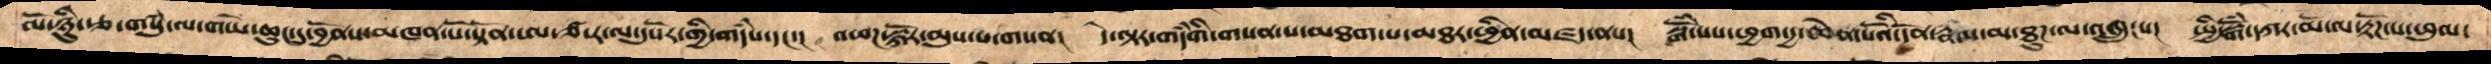ལོ་ཉིུ་རྩ་གསུཾ་ལ་གཡོ་ཆུང་དུ་བྱོནས་མཁན་པོ་སྟོན་ཨ་ཙ་ར་ལ་དུསོར་གྱི་གདཾས་དང་།  འཕཌ་སྐོར་མུས་པ་གསན།   དེ་ལྟར་གདཾགི་གསན་པ་མཐག་པ་མཐར་ཕྱིན་མཛད་ནས།   སྒོཾས་པས་ཕྱག་དྱ་ཆེན་པོའི་དོན་རྣལ་མ་ཐུཌ་ལ་འཁྲུངས།  སྤྱི་སྒོཾ་དཀར་མོ་ལ་རྟོཌ་པ་ཕུལ་
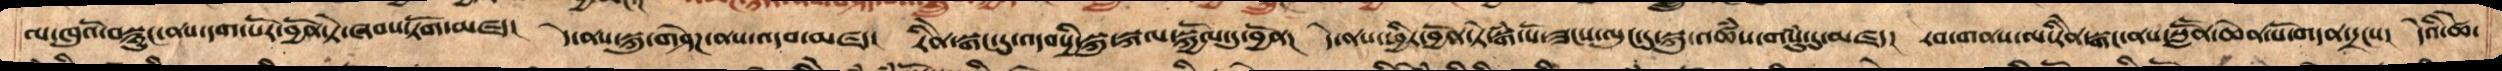ལ་ཁུའོ་བསྙུང་ནས་དག་པོར་བྱོན་ཏེ་ཞབས་ཏོག་མཛད།  དེ་ནས་སྐུ་གཤེཌ་ནས་འདབ་མཛད།  རིནེ་སྒང་དུ་འདབསྱི་སྐུ་སྐལ་སྐྱོལ་དུ་བྱོན།   དེ་ནས་ཕྱིར་བྱོན་ཏེ་སྒཾ་པོ་ཟངས་ལུང་དུ་སྐུ་འཚཾས་གསུཾ་དུ་མཛད།  རབ་གནས་ལ་རིནེ་སྒང་ནས་སླཽན་ཆེན་པོ་གདན་དྲངས།   དེའི་ཚེ་
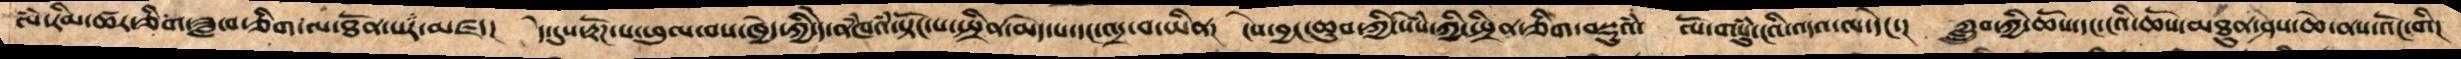ལཾ་རིམ་ཚར་ཅིག་ཟླ་བ་ཅིག་ལ་ཐོན་པར་མཛད།   དེ་དུས་རྟོཌ་པ་ཕུལ་བས་ཁྱེད་ཀྱི་དེ་ནཾཁའཾསྟོང་པ་སྤྲིན་མེད་པ་དང་འདྲ་བ་ཡིན།  ངེས་བྱང་ཆུབ་ཀྱི་སེསཾ་ཀྱི་ཕྲིན་ཅིག་བསྡུའཾ།  ལོ་གསུཾ་ངའི་འདའ་ལ་དེང་།   ཀླྲུབ་ཀྱི་ཆོས་དང་ངའི་ཆོས་མཐུན་ཤེས་ཆེ་ནས་འོང་གི།
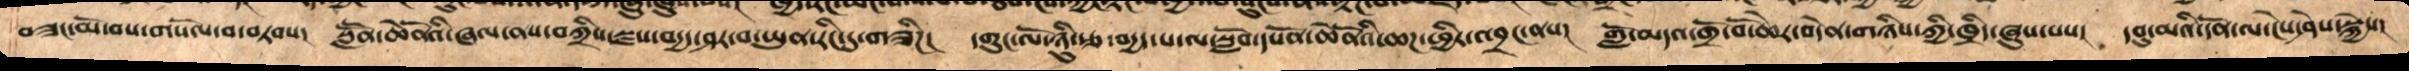བཟང་མོ་བས་གསོལ་བ་བཏབས།     སླཽན་ཆེནོའི་ཞལ་ནས་བཀྲིས་སྫས་བདྱད་ཤར་བ་ཡུན་རིང་དུ་གཟིཌ།   དགུང་ལོ་ཉིུ་རྩ་བདྱད་པ་ལ་སློབ་དཔོན་ཆེནོའི་ཆཌ་ཕྱིར་འབྲང་ནས།     གློ་མདའ་གྲོ་བོ་ཆེར་བདེན་གཉིས་ཀྱི་ཁྲིད་ཞུས་པས།   དབུ་མའི་དོན་ལ་ངེས་ཤེས་སྐྱེས།
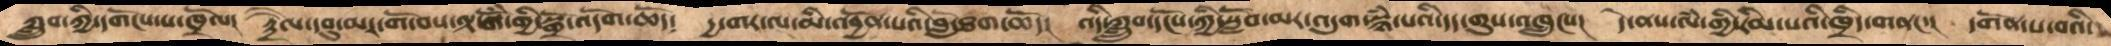ཀླྲུབ་ཀྱི་དགོངས་པ་ཁྲོལ། རྟཻལ་དབུ་མར་གོ་བས་ལྟ་སྒོཾ་གྱི་སྒྲོ་འདོགས་ཆོད།  དྱ་གར་ལ་མི་འབྱོན་པའི་བློ་ཐག་ཆོད།  འདི་ཀླྲུབ་དངོས་ཀྱི་སློབ་མར་འདུག་སྙཾ་པའི་དད་གུས་འཁྲུངས།  དེ་ནས་ལཾ་གྱི་རིམ་པའི་ཁྲིད་གནང་།   དགོན་པ་པའི་
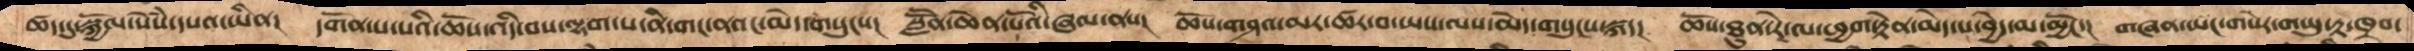ཚད་དུ་སྐྱོལ་སེཾས་དཔའ་ཡིན།  དགོན་པ་པའི་ཆོས་འདི་བས་ལྷག་པ་ནི་གང་ནའང་མེད་གསུངས།  སླཽན་ཆེན་པོའི་ཞལ་ནས།  ཆོས་གཤའ་མར་ཚར་བ་ཡས་ལས་མེད་གསུངས་སྐད།  ཆོས་ཐུན་རེ་ལ་ཕྱག་རྟེན་མེད་པ་བྱེད་མ་མྱོང་།   གཞན་ཡང་གསེར་གཡུ་རྟ་ཁྲབ་
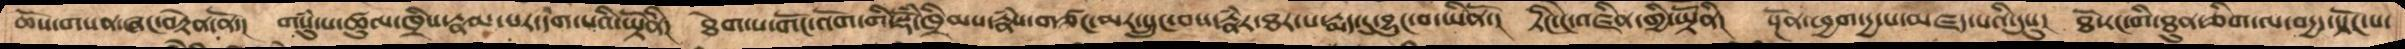ཆོས་གསན་ཞང་བསྟེན་ནོ།  གསུཾ་པ་ཚུལ་ཁྲིས་རྣམ་པར་དག་པའི་ཡྟོནི།  ཐེག་པ་གོང་འོག་གི་སྡོཾ་ཁྲིམས་རྣཾས་གཙང་མར་སྲུང་བས་རྣཾར་ཐར་པ་རྨད་དུ་བྱུང་བ་ཡིནོ།  ཏིང་ངེ་འཛིན་གྱི་ཡྟོནི།    སྔོན་ཕྱག་དྱ་པ་མཛད་པའི་དུསུ།   ཐོ་རང་གི་ཐུན་ཅིག་ལ་བདྱད་སྟོང་པ་
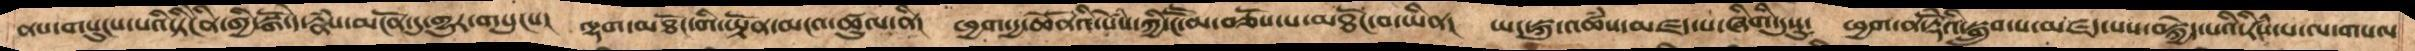ནས་གསུངས་པའི་ཏིངེནི་གྱི་སྒོ་དེ་རྣཾས་མངོན་དུ་གྱུར་གསུངས།  ལྷག་མཐོང་གི་ཡྟོན་མངའ་ཚུལ་ནི།  ཕྱག་དྱ་ཆེནོའི་སེཾས་ཀྱི་ངཽ་མ་བཅོས་པ་མཐོང་བ་ཡིན།  ཡང་སྐུ་འཚཾས་མཛད་པ་ཞིགི་དུསུ།  ཕྱག་ན་རྡོེའི་སྒྲུབ་པམཛད་པས་བསྐྱེད་པའི་རིསཾ་པ་ལ་གསལ
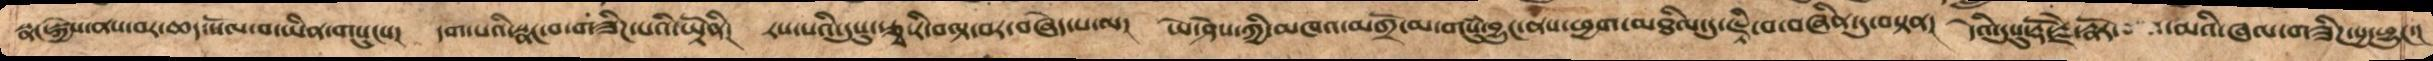སྣང་སྐྱེས་ནས་བར་ཆད་སོལ་བ་ཡིན་གསུངས།  དག་པའི་སྣང་བ་གཟིཌ་པའི་ཡྟོནི།  རས་པའི་དུསུ་རྩྭ་རི་བལྟ་བར་བཞེད་པ་ལ།   ཡེ་ཤེས་ཀྱི་མཁའ་འགྲོ་མ་གསུཾ་བྱུང་ནས་ཕྱག་མཐིལ་དུ་ཇྟི་བ་བཞིན་དུ་བསྟན།     དེའི་དུསུ་རྡོ་རྗེ་རྣོར་མའི་ཞལ་གཟིཌ་སྱ་བྱུང་།
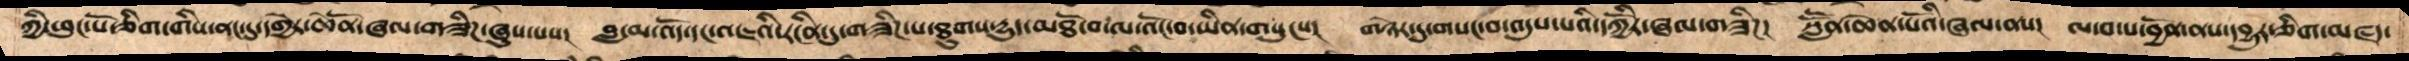ཀྱི་ཕུང་པོ་ཅིག་གིས་ནང་དུ་དགྱེར་ཆེནོ་ཞལ་གཟིཌ་ཞུས་པས།   བླ་མ་འོད་དང་འཇའི་རངིན་དུ་གཟིཌ་པ་ཐུགས་དྱུད་མཐོ་བ་ལ་འོང་བ་ཡིན་གསུངས།  གཉེར་དུ་གསང་བ་འདུས་པའི་དཀྱོིར་ཞལ་གཟིཌ།  སླཽན་ཆེན་པོའི་ཞལ་ནས།  ལ་བ་པ་བྱོན་ནས་དབྱུར་ཅིག་མཛད་
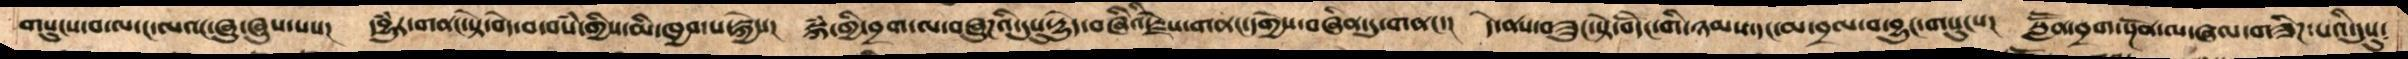གསུངས་བ་ལ་ང་ལའང་ཞུ་ཞུས་པས།  དབྱུཾར་གནང་སྟེ་བདེ་བ་བསཾ་གྱིས་མི་ཁྱབ་པ་སྐྱེས།  སྐཾ་གྱི་བྲག་ལ་བཞུཌའི་དུསུ་དྱུདེ་བཞིའི་རྗེས་གནང་དགྱེས་བཞིན་དུ་གནང་།   དེ་ནསབཟུང་སྟེ་བདོངེ་གི་ཉམས་དང་མ་བྲལ་བ་བྱུང་གསུངས།   སླཽན་བྲག་སྔོན་ལ་ཞལ་གཟིཌ་པའི་དུསུ།
